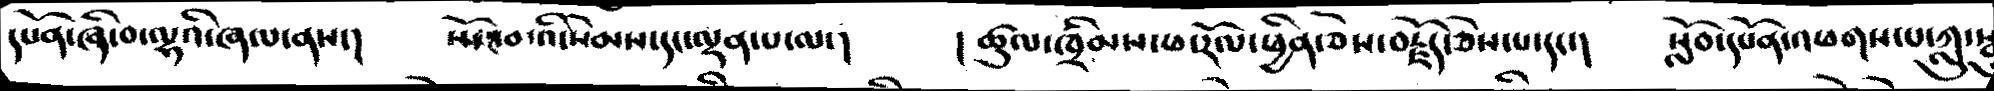དཔོན་ཞི་བ་ལྷའི་ཞལ་ནས་།   སྤོང་བ་འི་སེམས་དང་ལྡན་པ་ལ་།   །ཚུལ་ཁྲིམས་ཕ་རོལ་ཕྱིན་ཅེས་བརྗོད་ཅེས་པ་དང་།  སློབ་དཔོན་འཕགས་པ་ཀླུ་སྒྲུ
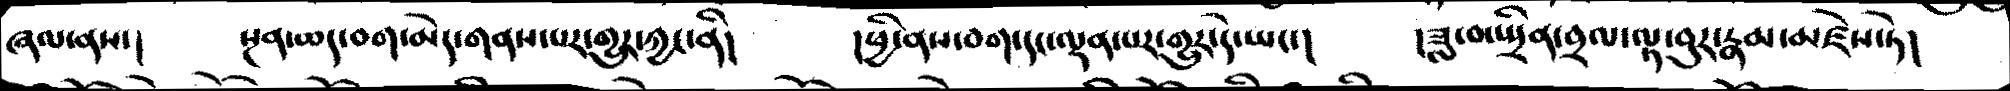ཞལ་ནས།   སྔན་ཆད་བག་མེད་གནས་པར་གྱུར་ཀྱང་ནི།    །ཕྱི་ནས་བག་དང་ལྡན་པར་གྱུར་དེ་ཡང་།    །ཟླ་བ་སྤྲིན་བྲལ་ལྟ་བུར་རྣམ་མཛེས་ཏེ།
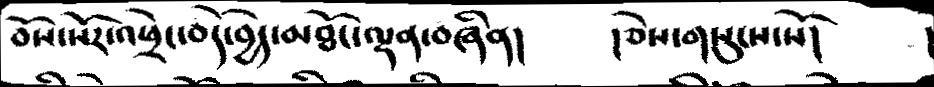བོས་སོར་འཕྲེང་བདོ་བྱེད་མཐོང་ལྡན་བཞིན།   །ཅེས་གསུངས་སོ།     །
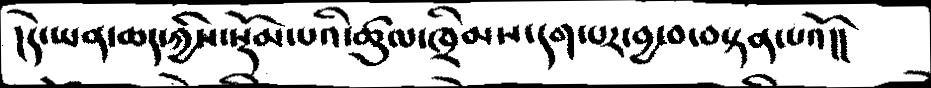།དེ་ཡན་ཆད་ཀྱིས་སྡོམ་པའི་ཚུལ་ཁྲིམས་དག་པར་བྱ་བ་བསྟན་པའོ།།
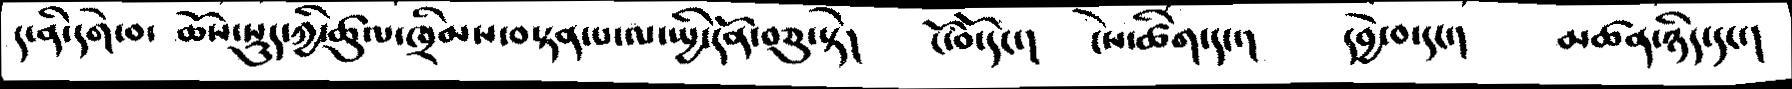ད་ནི་དགེ་བ་  ཆོས་སྡུད་ཀྱི་ཚུལ་ཁྲིམས་བསྟན་པ་ལ་སྤྱི་དོན་བཅུ་སྟེ།   ངོ་བོ་དང་།   ངེས་ཚིག་དང་།   དབྱེ་བ་དང་།   མཚན་ཉིད་དང་།
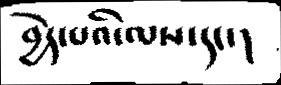བྱེད་པའི་ལས་དང་།
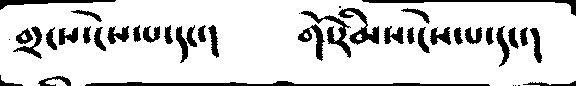གྲངས་ངེས་པ་དང་།   གོ་རིམས་ངེས་པ་དང་།
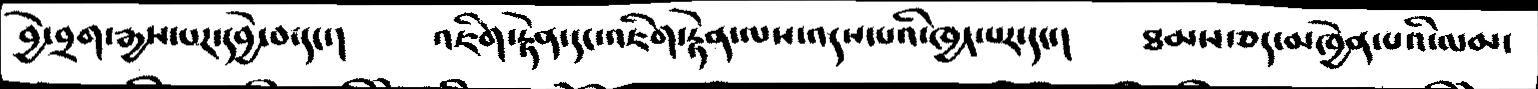བྱེ་བྲག་རྒྱས་པར་དབྱེ་བ་དང་།   འཇིག་རྟེན་དང་འཇིག་རྟེན་ལས་འདས་པའི་ཁྱད་པར་དང་།    ཐམས་ཅད་མཁྱེན་པའི་ལམ་
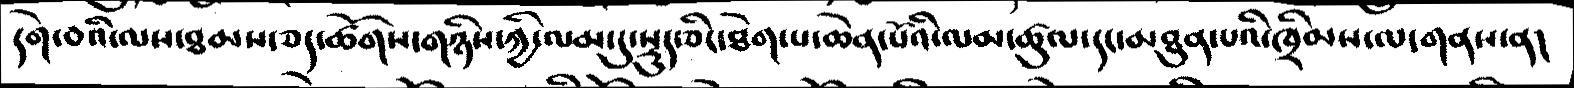དགེ་བའི་ལས་ཐམས་ཅད་ཚོགས་གཉིས་ཀྱི་ལམ་དུ་སྡུད་ཅིང་ཐེག་པ་ཆེན་པོའི་ལམ་ཚུལ་དང་མཐུན་པའི་ཁྲིམས་ལ་གནས་ན།
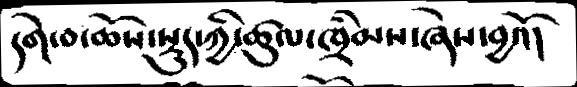དགེ་བ་ཆོས་སྡུད་ཀྱི་ཚུལ་ཁྲིམས་ཞེས་བྱའོ།
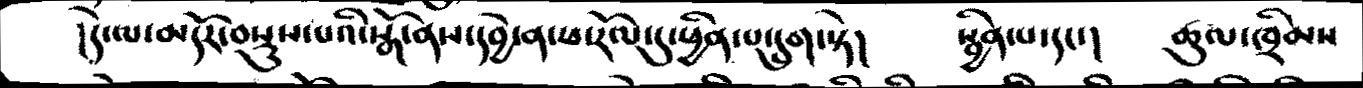།དེ་ལ་མདོར་བསྡུས་པའི་སྒོ་ནས་དབྱེ་ན་ཕ་རོལ་དུ་ཕྱིན་པ་དྲུག་སྟེ།   སྦྱིན་པ་དང་།   ཚུལ་ཁྲིམས
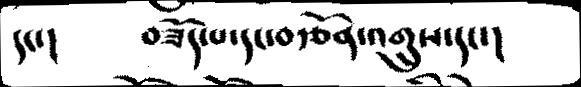དང་།   བཟོད་པ་དང་བརྩོན་འགྲུས་དང་།
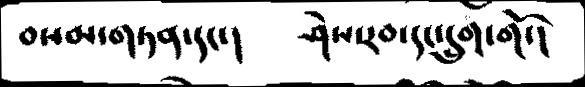བསམ་གཏན་དང་།   ཤེས་རབ་དང་དྲུག་གོ་།
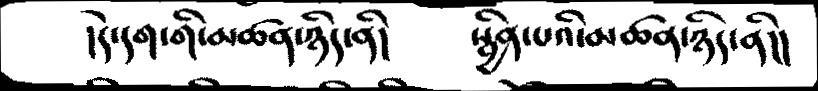།དེ་དག་གི་མཚན་ཉིད་ནི།    སྦྱིན་པའི་མཚན་ཉིད་ནི།།
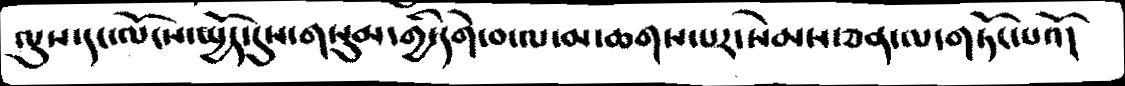ལུས་དང་ལོངས་སྤྱོད་དུས་གསུམ་གྱི་དགེ་བ་ལ་མ་ཆགས་པར་སེམས་ཅན་ལ་གཏོང་པའོ།
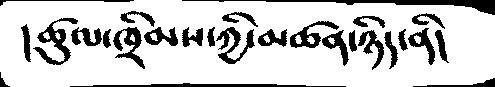།ཚུལ་ཁྲིམས་ཀྱི་མཚན་ཉིད་ནི།
